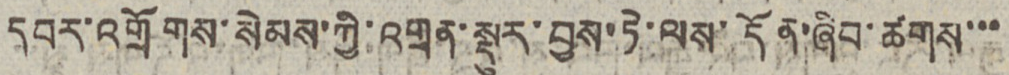དབར་འགྲོགས་སེམས་ཀྱི་འགྲན་སྡུར་བྱས་ཏེ་ལས་དོན་ཞིབ་ཚགས་་་
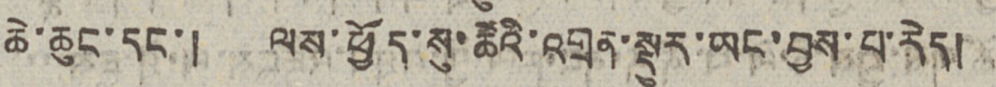ཆེ་ཆུང་དང་། ལས་ཕྱོད་སུ་ཚེའི་འགྲན་སྡུར་ཡང་བྱས་པ་རེད།
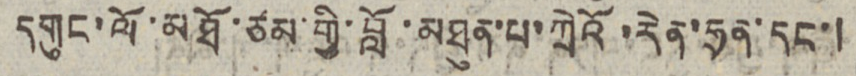དགུང་ལོ་མཐོ་ཙམ་གྱི་བློ་མཐུན་པ་ཀྲེའོ་རེན་དྲན་དང་།
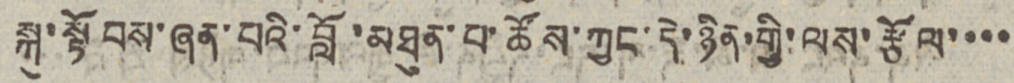སྐུ་སྟོབས་ཞན་པའི་བློ་མཐུན་པ་ཚོས་ཀྱང་དེ་ཉིན་གྱི་ལས་རྩོལ་་་་
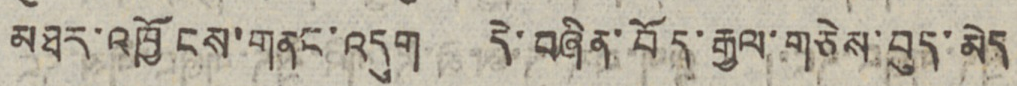མཐར་འཁྱོངས་གནང་འདུག དེ་བཞིན་བོད་རྒྱལ་གཅེས་བུད་མེད
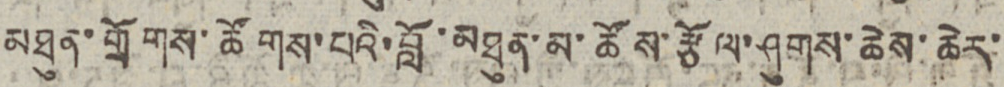མཐུན་གྲོགས་ཚོགས་པའི་བློ་མཐུན་མ་ཚོས་རྩོལ་ཤུགས་ཆེས་ཆེར་
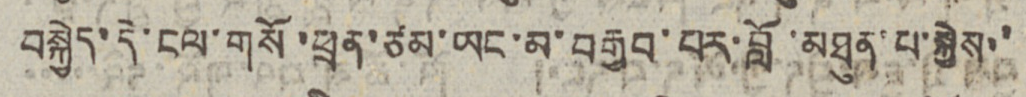བསྐྱེད་དེ་ངལ་གསོ་ཕྲན་ཙམ་ཡང་མ་བརྒྱབ་བར་བློ་མཐུན་པ་སྐྱེས་་
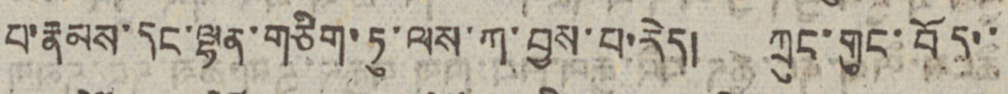པ་རྣམས་དང་ལྷན་གཅིག་ཏུ་ལས་ཀ་བྱས་པ་རེད། ཀྲུང་གུང་བོད་་
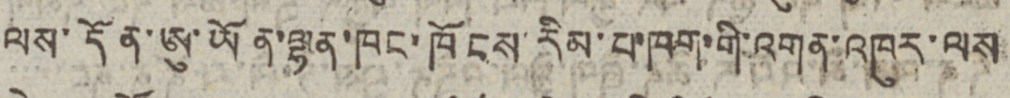ལས་དོན་ཨུ་ཡོན་ལྷན་ཁང་ཁོངས་རིམ་པ་ཁག་གི་འགན་འཁུར་ལས
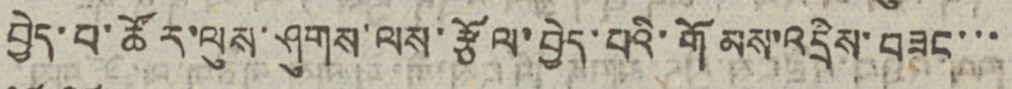བྱེད་པ་ཚོར་ལུས་ཤུགས་ལས་རྩོལ་བྱེད་པའི་གོམས་འདྲིས་བཟང་་་
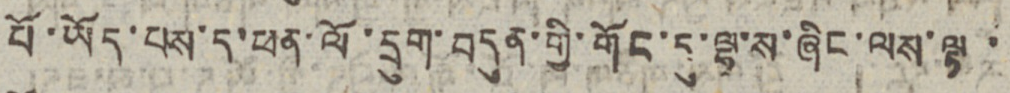པོ་ཡོད་པས་ད་ཕན་ལོ་དྲུག་བདུན་གྱི་གོང་དུ་ལྷ་ས་ཞིང་ལས་ལྟ ་
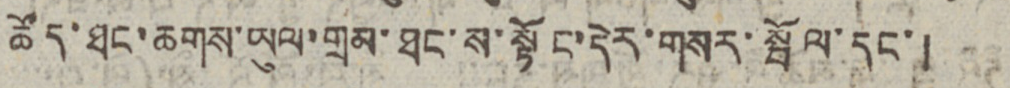ཚོད་ཐང་ཆགས་ཡུལ་གྲམ་ཐང་ས་སྟོང་དེར་གསར་སྤོལ་དང་།
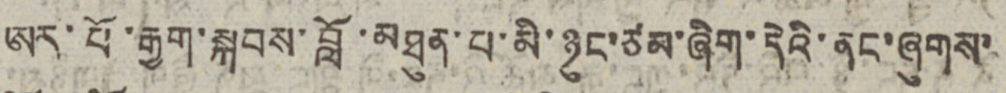ཨར་པོ་རྒྱག་སྐབས་བློ་མཐུན་པ་མི་ཉུང་ཙམ་ཞིག་དེའི་ནང་ཞུགས་
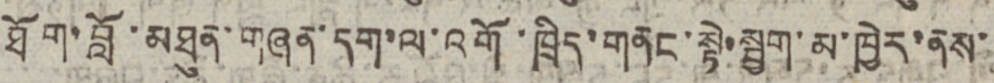ཐོག་བློ་མཐུན་གཞན་དག་ལས་འགོ་ཁྲིད་གནང་སྟེ་སྦྱག་མ་ཁྱེར་ནས་
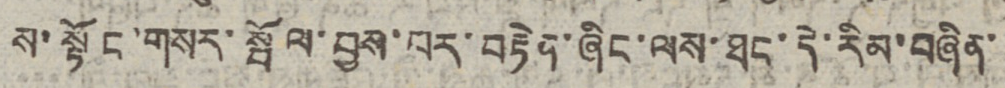ས་སྟོང་གསར་སྤོལ་བྱས་པར་བརྟེན་ཞིང་ལས་ཐང་དེ་རིམ་བཞིན་
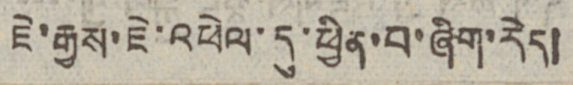ཇེ་རྒྱས་ཇེ་འཕེལ་དུ་ཕྱིན་པ་ཞིག་རེད།
